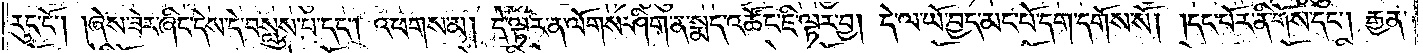རུང་ངོ༌། །ཞེས་ཟེར་ཞིང་དེས་དེ་བསླུས་པ་དང༌། འཕགས་མ། དེ་ལྟར་ན་ལོགས་ཤིག་ན་སྨད་འཚོང་ཇི་ལྟར་བྱ། དེ་ལ་ཡོ་བྱད་མང་པོ་དག་དགོས་སོ། །དང་པོར་ནི་གོས་དང༌། རྒྱན་
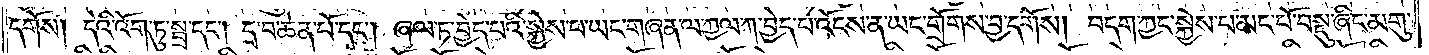དགོས། དེའི་འོག་ཏུ་སྦྲ་དང༌། དྲ་བ་ཆེན་པོ་དང༌། ཞལ་ཏ་བྱེད་པའི་སྐྱེས་པ་ཡང་གཞན་ལ་ཀྱལ་ཀ་བྱེད་པ་འོངས་ན་ཡང་གྲོགས་བྱ་དགོས། བདག་ཀྱང་སྐྱེས་པ་མང་པོ་བསྡུ་ཞིང་མགུ་
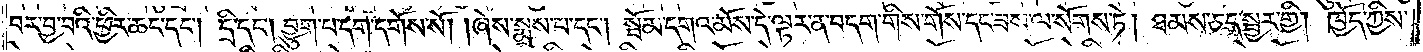བར་བྱ་བའི་ཕྱིར་ཆང་དང༌། དྲི་དང༌། བྱུག་པ་དག་དགོས་སོ། །ཞེས་སྨྲས་པ་དང༌། སྦོམ་དགའ་མོས་དེ་ལྟར་ན་བདག་གིས་གོས་དང་ཟས་ལ་སོགས་ཏེ། ཐམས་ཅད་སྦྱར་གྱི། ཁྱོད་ཀྱིས་
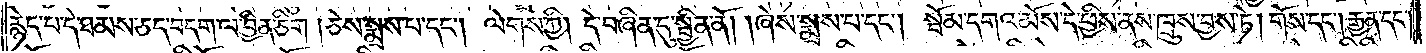རྙེད་པ་དེ་ཐམས་ཅད་བདག་ལ་བྱིན་ཅིག །ཅེས་སྨྲས་པ་དང༌། ལེགས་ཀྱི། དེ་བཞིན་དུ་སྦྱིན་ནོ། །ཞེས་སྨྲས་པ་དང༌། སྦོམ་དགའ་མོས་དེ་ཕྱིས་ནས་ཁྲུས་བྱས་ཏེ། གོས་དང༌། རྒྱན་དང༌།
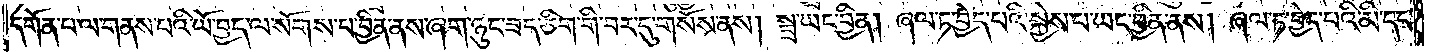དགོན་པ་ལ་གནས་པའི་ཡོ་བྱད་ལ་སོགས་པ་བྱིན་ནས་ཞག་ཉུང་ཟད་ཅིག་གི་བར་དུ་གསོས་ནས། སྦྲ་ཡང་བྱིན། ཞལ་ཏ་བྱེད་པའི་སྐྱེས་པ་ཡང་བྱིན་ནས། ཞལ་ཏ་བྱེད་པའི་མི་དང་
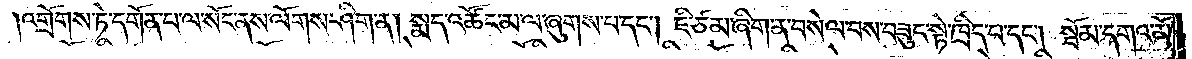འགྲོགས་ཏེ་དགོན་པ་ལ་སོང་ནས་ལོགས་ཤིག་ན། སྨད་འཚོང་མ་ལ་ཞུགས་པ་དང༌། ཇི་ཙམ་ཞིག་ན་བསེལ་བས་བཟུང་སྟེ་ཁྲིད་པ་དང༌། སྦོམ་དགའ་མོ་
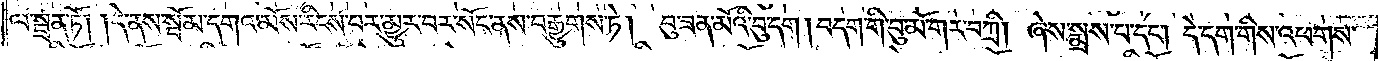ལ་སྦྲན་ཏོ། །དེ་ནས་སྦོམ་དགའ་མོས་རིངས་བར་མྱུར་བར་སོང་ནས་བརྒྱུགས་ཏེ། བུ་ཟན་མོའི་བུ་དག །བདག་གི་བུ་མོ་གར་བཀྲི། ཞེས་སྨྲས་པ་དང༌། དེ་དག་གིས་འཕགས་
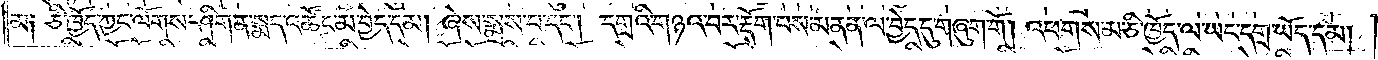མ༑ ཅི་ཁྱོད་ཀྱང་ལོགས་ཤིག་ན་སྨད་འཚོང་མ་བྱེད་དམ། ཞེས་སྨྲས་པ་དང༌། དགྲའི་གཉའ་བར་རྡོག་བས་མནན་ལ་བྱེད་དུ་གཞུག་གོ། འཕགས་མ་ཅི་ཁྱོད་ལ་ཡང་དགྲ་ཡོད་དམ།
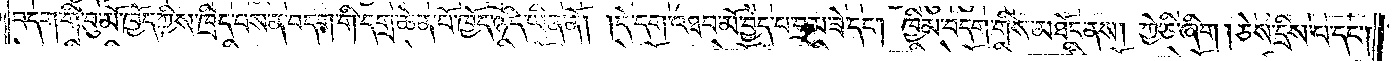བདག་གི་བུ་མོ་ཁྱོད་ཀྱིས་ཁྲིད་པས་ན་བདག་གི་དགྲ་ཆེན་པོ་ཁྱོད་ཉིད་ཡིན་ནོ། །དེ་དག་འཐབ་མོ་བྱེད་པ་བྲམ་ཟེ་དང༌། ཁྱིམ་བདག་གིས་མཐོང་ནས། ཀྱེ་ཅི་ཞིག། ཅེས་དྲིས་པ་དང༌།
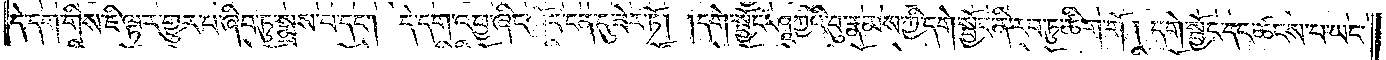དེ་དག་གིས་ཇི་ལྟར་གྱུར་པ་ཞིབ་ཏུ་སྨྲས་པ་དང༌། དེ་དག་འཕྱ་ཞིང་སྨོད་ངན་དུ་ཟེར་ཏོ། །དགེ་སྦྱོང་ཤཱཀྱའི་བུ་རྣམས་ཀྱི་དགེ་སྦྱོང་ནི་རབ་ཏུ་ཚིག་གོ། དགེ་སྦྱོང་དང་ཚངས་པ་ཡང་
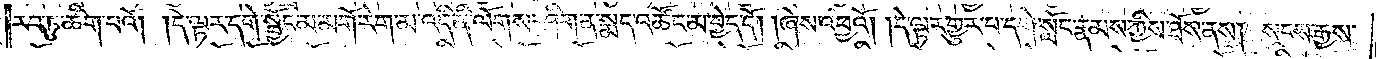རབ་ཏུ་ཚིག་པའོ། །དེ་ལྟར་དགེ་སྦྱོང་མ་མགོ་རེག་མ་འདི་ནི་ལོགས་ཤིག་ན་སྨད་འཚོང་མ་བྱེད་དོ། །ཞེས་འཕྱའོ། །དེ་ལྟར་གྱུར་པ་དགེ་སློང་རྣམས་ཀྱིས་ཐོས་ནས། སངས་རྒྱས་
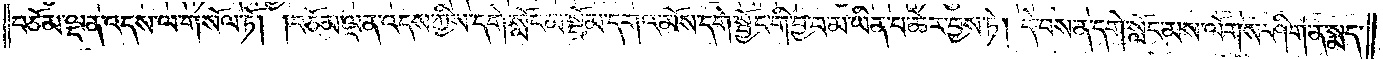བཅོམ་ལྡན་འདས་ལ་གསོལ་ཏོ། །བཅོམ་ལྡན་འདས་ཀྱིས་དགེ་སློང་མ་སྦོམ་དགའ་མོས་དགེ་སྦྱོང་གི་བྱ་བ་མ་ཡིན་པ་ཆེར་བྱས་ཏེ། དེ་བས་ན་དགེ་སློང་མས་ལོགས་ཤིག་ན་སྨད་
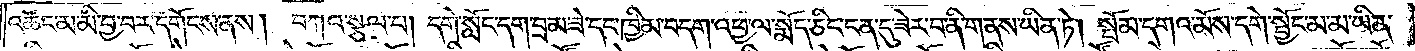འཚོང་མ་མི་བྱ་བར་དགོངས་ནས། བཀའ་སྩལ་པ། དགེ་སློང་དག་བམ་ཟེ་དང་ཁྱིམ་བདག་འཕྱ་ལ་སྨོད་ཅིང་ངན་དུ་ཟེར་བ་ནི་གནས་ཡིན་ཏེ། སྦོམ་དགའ་མོས་དགེ་སྦྱོང་མ་མ་ཡིན་
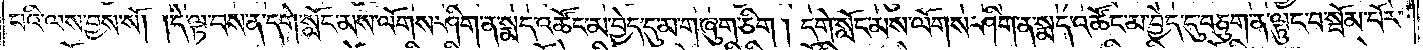པའི་ལས་བྱས་སོ། །དེ་ལྟ་བས་ན་དགེ་སློང་མས་ལོགས་ཤིག་ན་སྨད་འཚོང་མ་བྱེད་དུ་མ་གཞུག་ཅིག །དགེ་སློང་མས་ལོགས་ཤིག་ན་སྨད་འཚོང་མ་བྱེད་དུ་བཅུག་ན་ལྟུང་བ་སྦོམ་པོར་
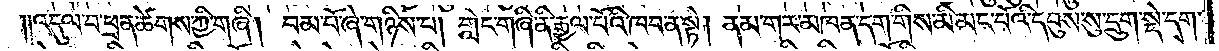༎འདུལ་བ་ཕྲན་ཚེགས་ཀྱི་གཞི། བམ་པོ་ཞེ་གཉིས་པ། གླིང་གཞི་ནི་རྒྱལ་པོའི་ཁབ་ན་སྟེ། ནམ་གར་མཁན་དག་གིས་མི་མང་པོའི་དབུས་སུ་དྲུག་སྡེ་དག་
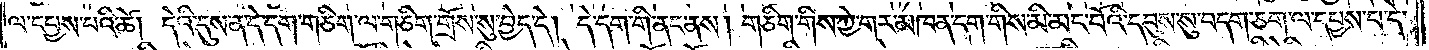ལ་དཔྱས་པའི་ཚེ། དེའི་དུས་ན་དེ་དག་གཅིག་ལ་གཅིག་གྲོས་སུ་བྱེད་དེ། དེ་དག་གི་ནང་ནས། གཅིག་གིས་ཀྱེ་གར་མཁན་དག་གིས་མི་མང་པོའི་དབུས་སུ་བདག་ཅག་ལ་དཔྱས་བ་དེ་
